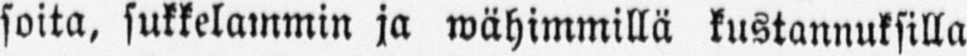soita, sukkelammin ja wähimmillä kustannuksilla
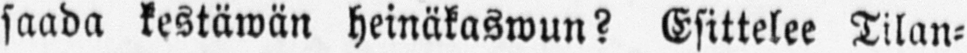saada kestäwän heinäkaswun? Esittelee Tilan-
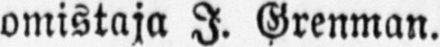omistaja J. Grenman.
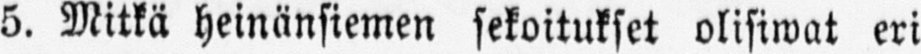5. Mitkä heinänsiemen sekoitukset olisiwat eri
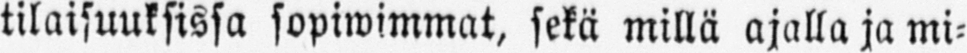tilaisuuksissa sopiwimmat, sekä millä ajalla ja mi-
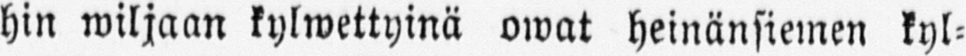hin wiljaan kylwettyinä owat heinänsiemen kyl-
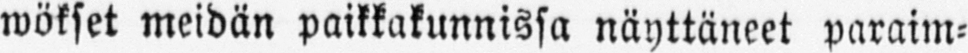wökset meidän paikkakunnissa näyttäneet paraim-
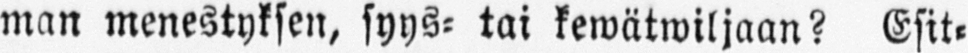man menestyksen, syys- tai kewätwiljaan? Esit-
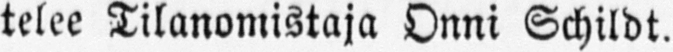telee Tilanomistaja Onni Schildt.
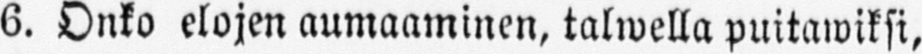6. Onko elojen aumaaminen, talwella puitawiksi,
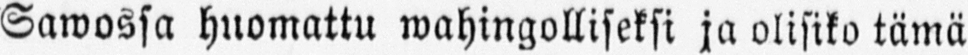Sawossa huomattu wahingolliseksi ja olisiko tämä
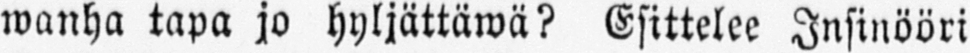wanha tapa jo hyljättäwä? Esittelee Insinööri
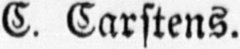C. Carstens.
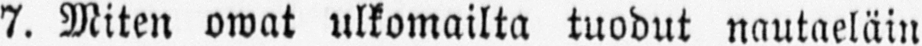7. Miten owat ulkomailta tuodut nautaeläin
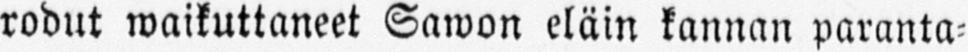rodut waikuttaneet Sawon eläin kannan paranta-
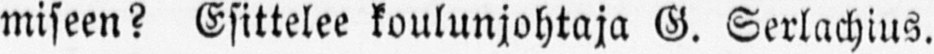miseen? Esittelee koulunjohtaja G. Serlachius.
